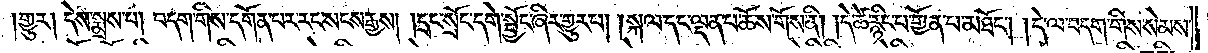གྱུར། དེས་སྨྲས་པ། བདག་གིས་དགོན་པར་རང་སངས་རྒྱས། །དྲང་སྲོང་དགེ་སྦྱོང་ཞིར་གྱུར་པ། །སྐལ་དང་ལྡན་པ་ཆོས་གོས་ནི། །དེ་ཚེ་རྙིང་པ་གྱོན་པ་མཐོང༌། །དེ་ལ་བདག་གིས་སེམས་
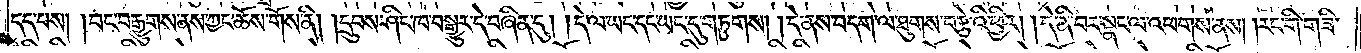དད་པས། །བང་བརྒྱུགས་ནས་ཀྱང་ཆོས་གོས་ནི། །དྲུབས་ཤིང་ཁ་བསྒྱུར་དེ་བཞིན་དུ། །དེ་ལ་ཡང་དང་ཡང་དུ་གཏུགས། །དེ་ནས་བདག་ལ་ཐུགས་བརྩེའི་ཕྱིར། །དེ་ནི་བར་སྣང་ལ་འཕགས་ནས། །རང་གི་གཟི་
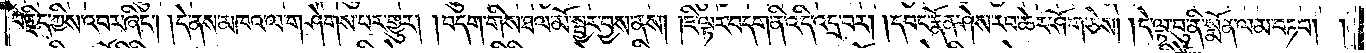བརྗིད་ཀྱིས་འབར་ཞིང༌། །དེ་ནས་མཁའ་ལ་གཤེགས་པར་གྱུར། །བདག་གིས་ཐལ་མོ་སྦྱར་བྱས་ནས། །ཇི་ལྟར་བདག་ནི་འདི་འདྲ་བར། །དབང་རྣོན་ཤེས་རབ་ཆེར་ཤོག་ཅེས། །དེ་ལྟ་བུ་ནི་སྨོན་ལམ་བཏབ། །
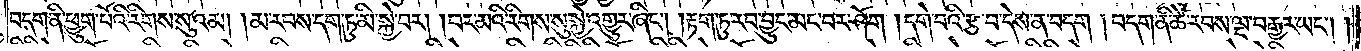བདག་ནི་ཕྱུག་པོའི་རིགས་སུ་འམ། །མ་རབས་དག་ཏུ་མི་སྐྱེ་བར། །བར་མའི་རིགས་སུ་སྐྱེ་འགྱུར་ཞིང༌། །རྟག་ཏུ་རབ་བྱུང་མང་བར་ཤོག །དགེ་བའི་རྩ་བ་དེས་ན་བདག །བདག་ནི་ཚེ་རབས་ལྔ་བརྒྱར་ཡང༌། །
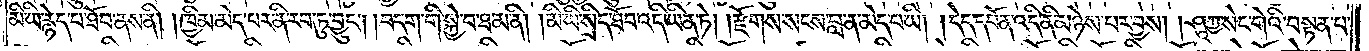མི་ཡི་རྙེད་པ་ཐོབ་ནས་ནི། །ཁྱིམ་མེད་པར་ནི་རབ་ཏུ་བྱུང༌། །བདག་གི་སྐྱེ་བ་ཐ་མ་ནི། །མི་ཡི་སྲིད་ཐོབ་འདི་ཡིན་ཏེ། །རྫོགས་སངས་བླ་ན་མེད་པ་ཡི། །དེད་དཔོན་འདི་ནི་མཉེས་པར་བྱས། །ཤཱཀྱ་སེང་གེའི་བསྟན་པ་
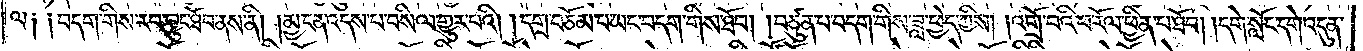ལ༑ ༑བདག་གིས་རབ་བྱུང་ཐོབ་ནས་ནི། །མྱ་ངན་འདས་པ་བསིལ་གྱུར་བའི། །དགྲ་བཅོམ་པ་ཡང་བདག་གིས་ཐོབ། །བཙུན་པ་བདག་གིས་ཟླ་ཕྱེད་ཀྱིས། །འགྲོ་བའི་ཕ་རོལ་ཕྱིན་པ་ཐོབ། །དགེ་སློང་དགེ་འདུན་
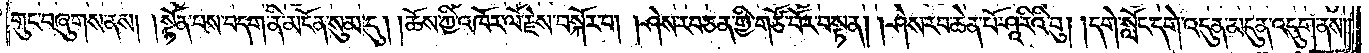གུང་བཞུགས་ནས། །སྟོན་པས་བདག་ནི་མངོན་སུམ་དུ། །ཆོས་ཀྱི་འཁོར་ལོ་རྗེས་བསྐོར་བ། །ཤེས་རབ་ཅན་གྱི་གཙོ་བོར་བསྟན། །ཤེས་རབ་ཆེན་པོ་ཤཱ་རིའི་བུ། །དགེ་སློང་དགེ་འདུན་མདུན་འདུག་ནས། །
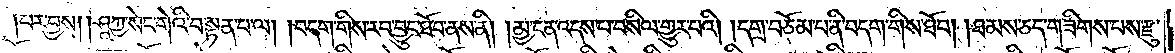པར་བྱས། །ཤཱཀྱ་སེང་གེའི་བསྟན་པ་ལ། །བདག་གིས་རབ་བྱུང་ཐོབ་ནས་ནི། །མྱ་ངན་འདས་པ་བསིལ་གྱུར་པའི། །དགྲ་བཅོམ་པ་ནི་བདག་གིས་ཐོབ། །ཐམས་ཅད་གཟིགས་པས་རྫུ་
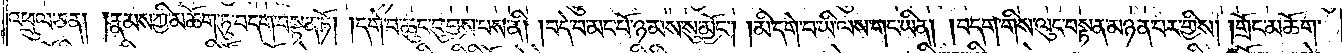འཕྲུལ་ཅན། །རྣམས་ཀྱི་མཆོག་ཏུ་བདག་བསྟན་ཏོ། །དགེ་བ་ཆུང་ངུ་བྱས་པས་ནི། །བདེ་བ་མང་པོ་ཉམས་སུ་མྱོང༌། །མི་དགེ་བ་ཡི་ལས་གང་ཡིན། །བདག་གིས་ལུང་བསྟན་མཉན་པར་གྱིས། །གྲོང་མཆོག་
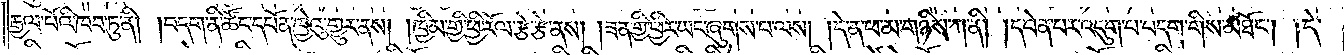རྒྱལ་པོའི་ཁབ་ཏུ་ནི། །བདག་ནི་ཚོང་དཔོན་ཁྱེའུ་གྱུར་ནས། །ཁྱིམ་གྱི་ཕྱི་རོལ་རྩེ་རྩེ་ནས། །ཟན་གྱི་ཕྱིར་ཡང་ཞུགས་པ་ལས། །དེ་ན་ཕ་མ་གཉིས་ཀ་ནི། །དབེན་པར་འདུག་པ་བདག་གིས་མཐོང༌། །དེ་
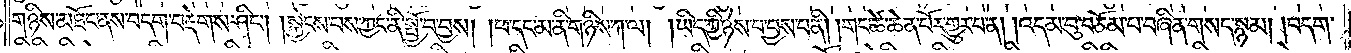གཉིས་མཐོང་ནས་བདག་བརྡེགས་ཤིང༌། །སྐྱེངས་པས་ཀྱང་ནི་སྤྱོ་བ་བྱས། །ཕ་དང་མ་ནི་གཉིས་ཀ་ལ། །ཡིད་ཀྱི་ཉེས་པ་བྱས་པ་ནི། །གང་ཚེ་ཆེན་པོར་གྱུར་པ་ན། །འདམ་བུ་བཅོམ་པ་བཞིན་གསད་སྙམ། །བདག་
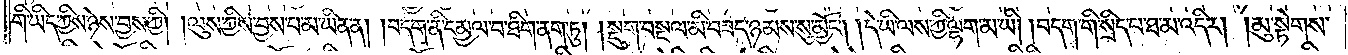གི་ཡིད་ཀྱིས་ཉེས་བྱས་ཀྱི། །ལུས་ཀྱིས་བྱས་པ་མ་ཡིན་ན། །བདག་ནི་དམྱལ་བ་ཐིག་ནག་ཏུ། །སྡུག་བསྔལ་མི་བཟད་ཉམས་སུ་མྱོང༌། །དེ་ཡི་ལས་ཀྱི་ལྷག་མ་ཡི། །བདག་གི་སྲིད་པ་ཐ་མ་འདིར། །མུ་སྟེགས་
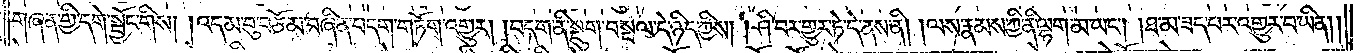གཞན་གྱི་དགེ་སྦྱོང་གིས། །འདམ་བུ་བཅོམ་བཞིན་བདག་གཏོག་འགྱུར། །བདག་ནི་སྡུག་བསྔལ་དེ་ཉིད་ཀྱིས། །ཤི་བར་གྱུར་ཏེ་དེ་ནས་ནི། །ལས་རྣམས་ཀྱི་ནི་ལྷག་མ་ཡང༌། །ཐ་མ་ཟད་པར་འགྱུར་བ་ཡིན། །
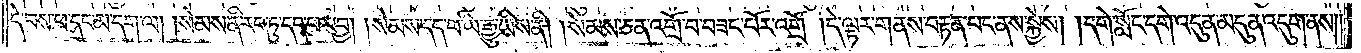དེ་བས་ཕ་དང་མ་དག་ལ། །སེམས་ནི་རབ་ཏུ་དད་པར་བྱ། །སེམས་དད་པ་ཡི་རྒྱུ་ཡིས་ནི། །སེམས་ཅན་འགྲོ་བ་བཟང་པོར་འགྲོ་།དེ་ལྟར་གནས་བརྟན་པང་ནས་སྐྱེས། །དགེ་སློང་དགེ་འདུན་མདུན་འདུག་ནས༎
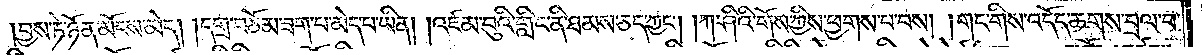བྱས་ཏེ་ཉོན་མོངས་མེད། །དགྲ་བཅོམ་ཟག་པ་མེད་པ་ཡིན། །འཛམ་བུའི་གླིང་ནི་ཐམས་ཅད་ཀྱང༌། །ཀ་ཤིའི་གོས་ཀྱིས་ཕྱགས་པ་བས། །གང་གིས་འདོད་ཆགས་བྲལ་བ་
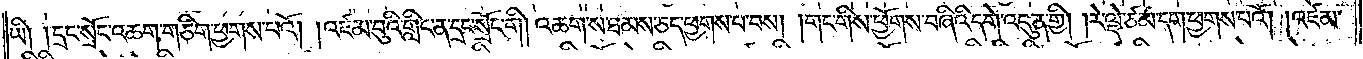ཡི། །དྲང་སྲོང་འཆག་གཅིག་ཕྱགས་པའོ། །འཛམ་བུའི་གླིང་ན་དྲང་སྲོང་གི། འཆག་ས་ཐམས་ཅད་ཕྱགས་པ་བས། །གང་གིས་ཕྱོགས་བཞིའི་དགེ་འདུན་གྱི། །རེ་ལྡེ་ཙམ་དག་ཕྱགས་པའོ། །འཛམ་
